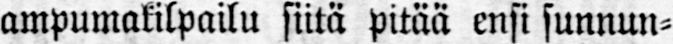ampumakilpailu siitä pitää ensi sunnun-
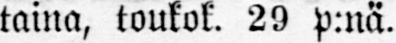taina, toukok. 29 p:nä.
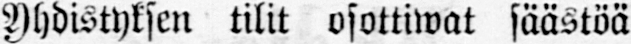Yhdistyksen tilit osottiwat säästöä
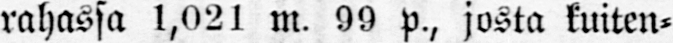rahassa 1,021 m. 99 p., josta kuiten-
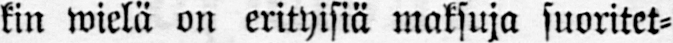kin wielä on erityisiä maksuja suoritet-
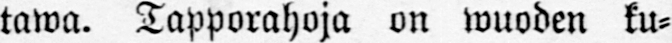tawa. Tapporahoja on wuoden ku-
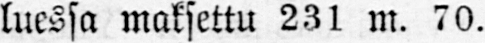luessa maksettu 231 m. 70.
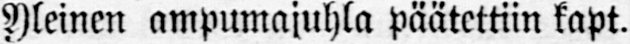Yleinen ampumajuhla päätettiin kapt.
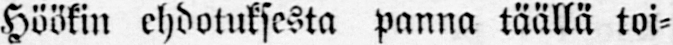Hoökin ehdotuksesta panna täällä toi-
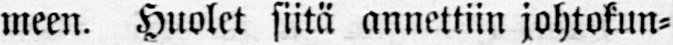meen. Huolet siitä annettiin johtokun-
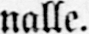nalle.
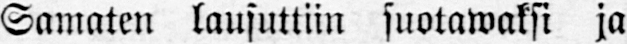Samaten lausuttiin suotawaksi ja
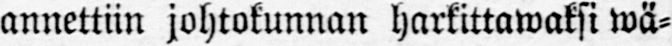annettiin johtokunnan harkittawaksi wä-
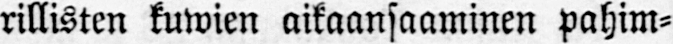rillisten kuwien aikaansaaminen pahim-
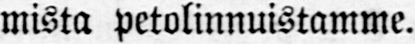mista petolinnuistamme.
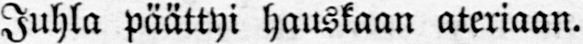Juhla päättyi hauskaan ateriaan.
